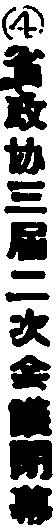④省政协三届二次会議閉幕
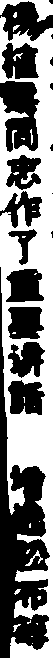楊植霖同志作了重要讲话 增选松布等
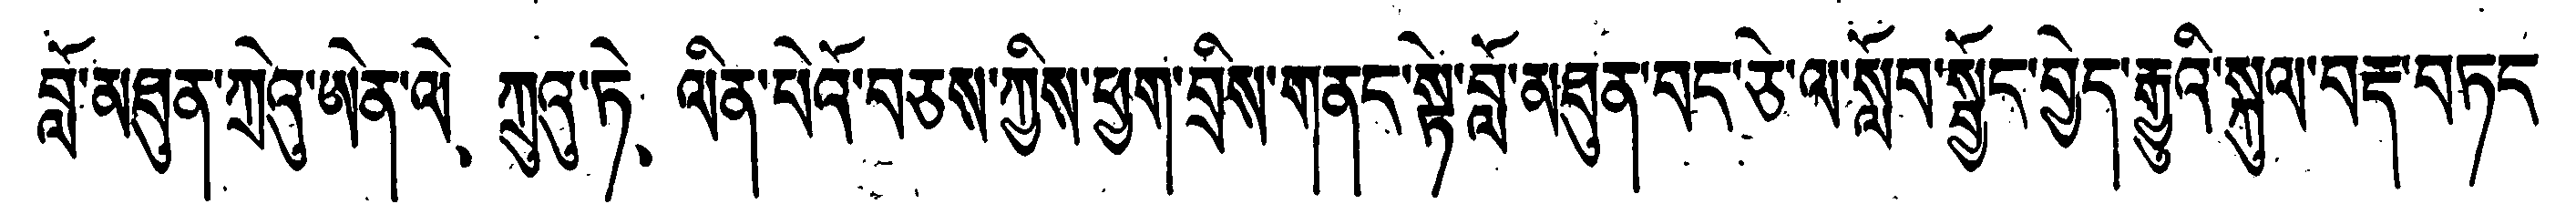བློ་མཐུན་ཀྲེའུ་ཨེན་ལེ、ཀྲུའུ་ཏེ、ལིན་པེའོ་བཅས་ཀྱིས་ཕྱག་བྲིས་གནང་སྟེ་བློ་མཐུན་བང་ཅེ་ལ་སློབ་སྦྱོང་བྱེད་རྒྱུའི་སྐུལ་བརྡ་བཏང
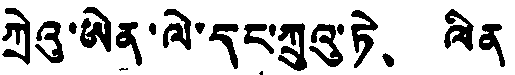ཀྲེའུ་ཨེན་ལེ་དང་ཀྲུའུ་ཏེ、ལིན
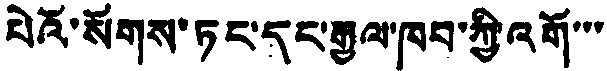པེའོ་སོགས་ཏང་དང་རྒྱལ་ཁབ་ཀྱི་འགོ་་་
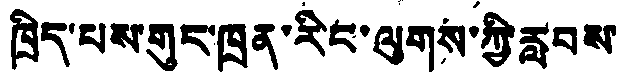ཁྲིད་པས་གུང་ཁྲན་རིང་ལུགས་ཀྱི་རླབས་
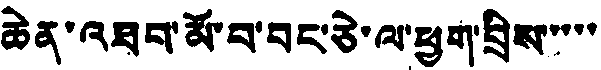ཆེན་འཐབ་མོ་བ་བང་ཅེ་ལ་ཕྱག་བྲིས་་་་་
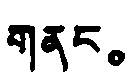གནང。
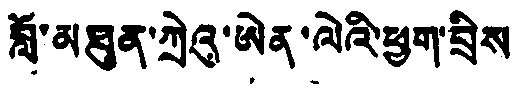བློ་མཐུན་ཀྲེའུ་ཨེན་ལེའི་ཕྱག་བྲིས
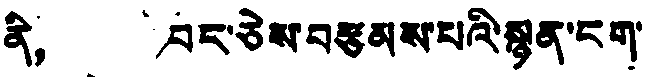ནི，བང་ཅེས་བརྩམས་པའི་སྙན་ངག་
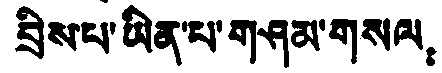བྲིས་པ་ཡིན་པ་གཤམ་གསལ：
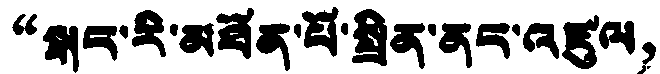“སྒང་རི་མཐོན་པོ་སྤྲིན་ནང་འཛུལ，
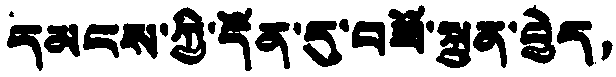དམངས་ཀྱི་དོན་དུ་བཟོ་སྐྲུན་བྱེད，
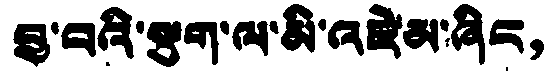བྱ་བའི་སྡུག་ལ་མི་འཛེམ་ཞིང，
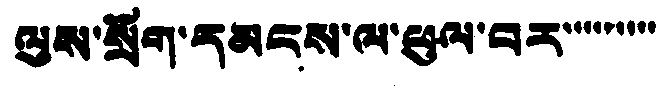ལུས་སྲོག་དམངས་ལ་ཕུལ་བར་་་་་་་་་
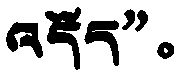འདོད”。
